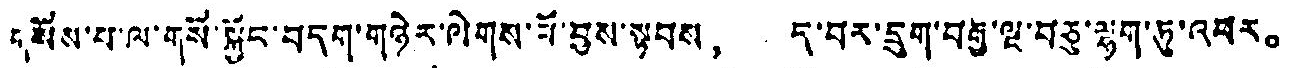གསོས་པ་ལ་གསོ་སྐྱོང་བདག་གཉེར་ལེགས་པོ་བྱས་སྟབས， ད་བར་དྲུག་བརྒྱ་ལྔ་བཅུ་ལྷག་ཏུ་འབར。
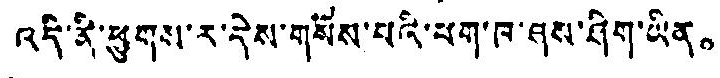འདི་ནི་ཕྱུགས་ར་དེས་གསོས་པའི་ཕག་ཁ་ཤས་ཤིག་ཡིན。
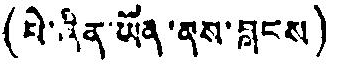(པེ་ཞིན་ཡོན་ནས་བླངས)
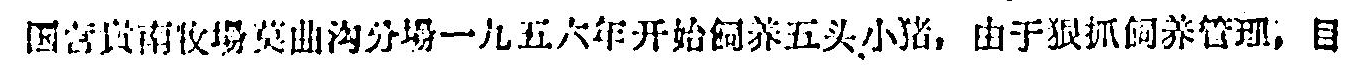国营貴南牧場莫曲沟分場一九五六年开始飼羊五头小猪，由于狠抓飼养管理，目
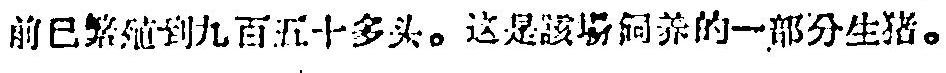前已繁殖到九百五十多头。这是該場飼养的一部分生猪。
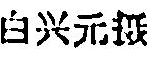白兴元摄
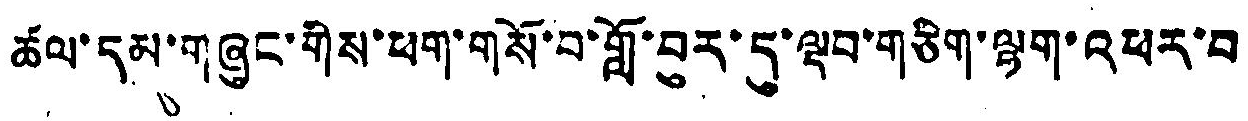ཚལ་དམ་གཞུང་གིས་ཕག་གསོ་བ་གློ་བུར་དུ་ལྡབ་གཅིག་ལྷག་འཕར་བ
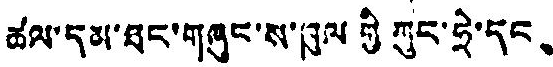ཚལ་དམ་ཐང་གཞུང་ས་ཁུལ ཀྱི ཀུང་ཧྲེ་དང、
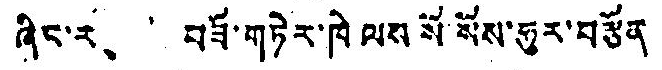ཞིང་ར、 བཟོ་གཏེར་ཁེ ལས སོ་སོས་ཧུར་བརྩོན
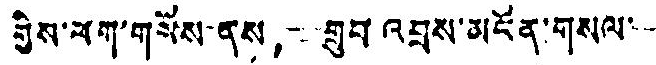གྱིས་ཕག་གསོས་ནས， གྲུབ འབྲས་མངོན་གསལ་
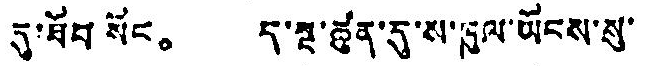དུ་ཐོབ སོང。 ད་སྔ་ཚུན་དུ་ས་ཁུལ་ཡོངས་སུ་
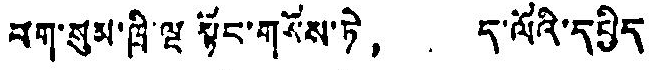བག་སུམ་ཁྲི་ལྔ སྟོང་གསོས་ཏེ， ད་ལོའི་དཔྱིད
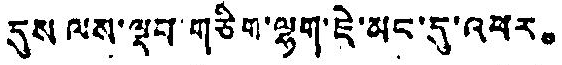དུས ལས་ལྡབ་གཅིག་ལྷག་ཇེ་མང་དུ་འཕར。
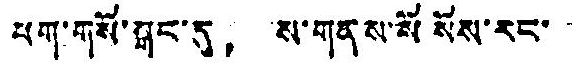པག་གསོ་སྒང་དུ， ས་གནས་སོ སོས་རང་
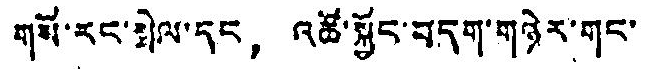གསོ་རང་སྤེལ་དང， འཚོ་སྐྱོང་བདག་གཉེར་གང་
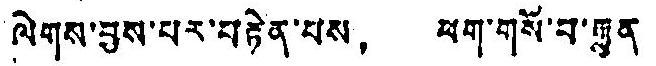ལེགས་བྱས་པར་བརྟེན་པས， ཕག་གསོ་བ་རྐྱུན་
